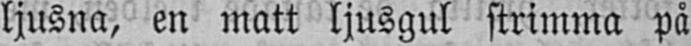ljusna, en matt ljusgul strimma på
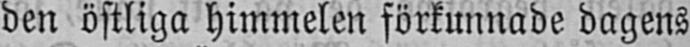den östliga himmelen förkunnade dagens
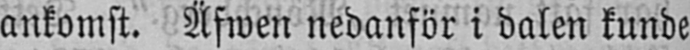ankomst. Äfwen nedanför i dalen kunde
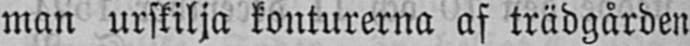man urskilja konturerna af trädgården
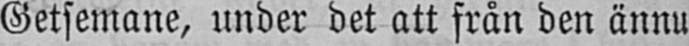Getsemane, under det att från den ännu
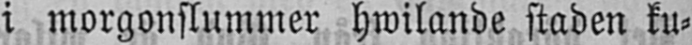i morgonslummer hwilande staden ku-
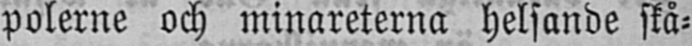polerne och minareterna helsande skå-
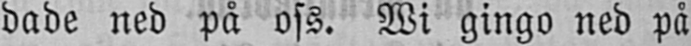dade ned på oss. Wi gingo ned på
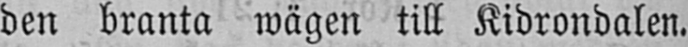den branta wägen till Kidrondalen.
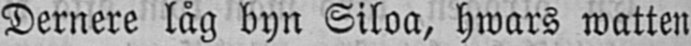Dernere låg byn Siloa, hwars watten
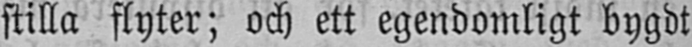stilla flyter; och ett egendomligt bygdt
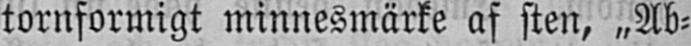tornformigt minnesmärke af sten, „Ab-
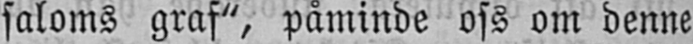saloms graf", påminde oss om denne
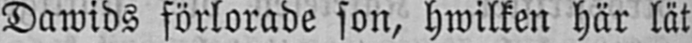Dawids förlorade son, hwilken här lät
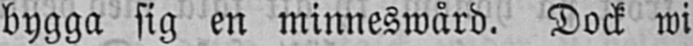bygga sig en minneswård. Dock wi
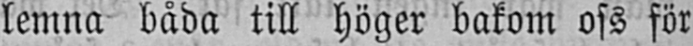lemna båda till höger bakom oss för
